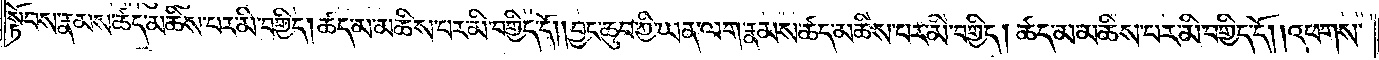སྟོབས་རྣམས་ཚད་མཆིས་པར་མི་བགྱིད། ཚད་མ་མཆིས་པར་མི་བགྱིད་དོ། །བྱང་ཆུབ་ཀྱི་ཡན་ལག་རྣམས་ཚད་མཆིས་པར་མི་བགྱིད། ཚད་མ་མཆིས་པར་མི་བགྱིད་དོ། །འཕགས་
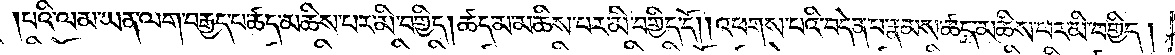པའི་ལམ་ཡན་ལག་བརྒྱད་པ་ཚད་མཆིས་པར་མི་བགྱིད། ཚད་མ་མཆིས་པར་མི་བགྱིད་དོ། །འཕགས་པའི་བདེན་པ་རྣམས་ཚད་མཆིས་པར་མི་བགྱིད།
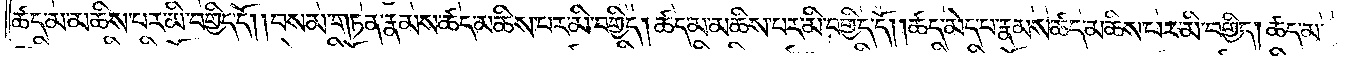ཚད་མ་མཆིས་པར་མི་བགྱིད་དོ། །བསམ་གཏན་རྣམས་ཚད་མཆིས་པར་མི་བགྱིད། ཚད་མ་མཆིས་པར་མི་བགྱིད་དོ། །ཚད་མེད་པ་རྣམས་ཚད་མཆིས་པར་མི་བགྱིད། ཚད་མ་
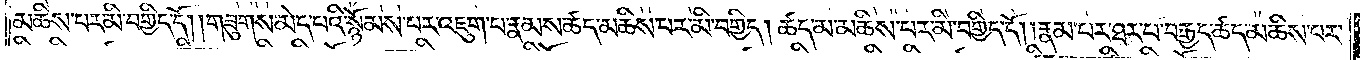མཆིས་པར་མི་བགྱིད་དོ། །གཟུགས་མེད་པའི་སྙོམས་པར་འཇུག་པ་རྣམས་ཚད་མཆིས་པར་མི་བགྱིད། ཚད་མ་མཆིས་པར་མི་བགྱིད་དོ། །རྣམ་པར་ཐར་པ་བརྒྱད་ཚད་མཆིས་པར་
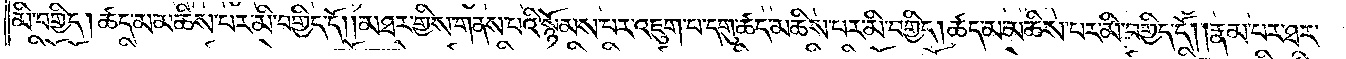མི་བགྱིད། ཚད་མ་མཆིས་པར་མི་བགྱིད་དོ། །མཐར་གྱིས་གནས་པའི་སྙོམས་པར་འཇུག་པ་དགུ་ཚད་མཆིས་པར་མི་བགྱིད། ཚད་མ་མཆིས་པར་མི་བགྱིད་དོ། །རྣམ་པར་ཐར་
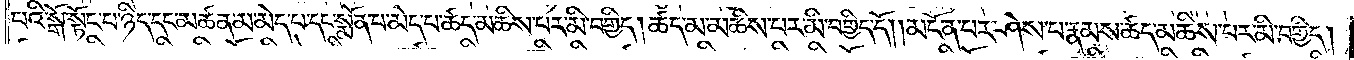པའི་སྒོ་སྟོང་པ་ཉིད་དང་མཚན་མ་མེད་པ་དང་སྨོན་པ་མེད་པ་ཚད་མཆིས་པར་མི་བགྱིད། ཚད་མ་མཆིས་པར་མི་བགྱིད་དོ། །མངོན་པར་ཤེས་པ་རྣམས་ཚད་མཆིས་པར་མི་བགྱིད།
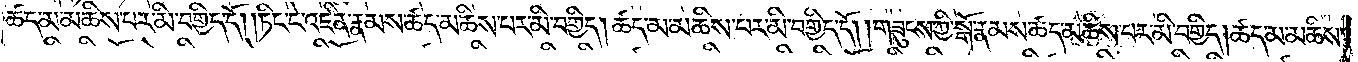ཚད་མ་མཆིས་པར་མི་བགྱིད་དོ། །ཏིང་ངེ་འཛིན་རྣམས་ཚད་མཆིས་པར་མི་བགྱིད། ཚད་མ་མཆིས་པར་མི་བགྱིད་དོ། །གཟུངས་ཀྱི་སྒོ་རྣམས་ཚད་མཆིས་པར་མི་བགྱིད། ཚད་མ་མཆིས་
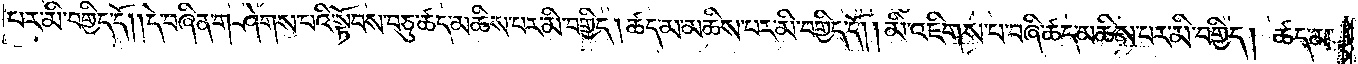པར་མི་བགྱིད་དོ། །དེ་བཞིན་གཤེགས་པའི་སྟོབས་བཅུ་ཚད་མཆིས་པར་མི་བགྱིད། ཚད་མ་མཆིས་པར་མི་བགྱིད་དོ། །མི་འཇིགས་པ་བཞི་ཚད་མཆིས་པར་མི་བགྱིད། ཚད་མ་
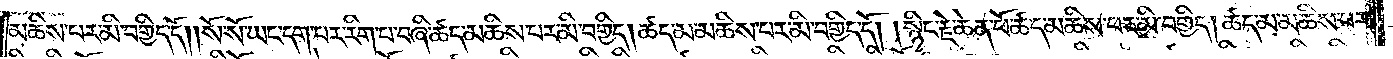མཆིས་པར་མི་བགྱིད་དོ། །སོ་སོ་ཡང་དག་པར་རིག་པ་བཞི་ཚད་མཆིས་པར་མི་བགྱིད། ཚད་མ་མཆིས་པར་མི་བགྱིད་དོ། །སྙིང་རྗེ་ཆེན་པོ་ཚད་མཆིས་པར་མི་བགྱིད། ཚད་མ་མཆིས་པར་
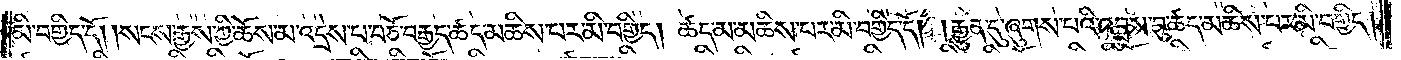མི་བགྱིད་དོ། །སངས་རྒྱས་ཀྱི་ཆོས་མ་འདྲེས་པ་བཅོ་བརྒྱད་ཚད་མཆིས་པར་མི་བགྱིད། ཚད་མ་མཆིས་པར་མི་བགྱིད་དོ། །རྒྱུན་དུ་ཞུགས་པའི་འབྲས་བུ་ཚད་མ་མཆིས་པར་མི་བགྱིད།
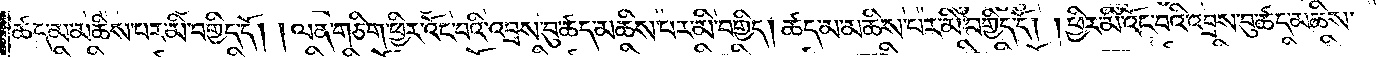ཚད་མ་མཆིས་པར་མི་བགྱིད་དོ། །ལན་གཅིག་ཕྱིར་འོང་བའི་འབྲས་བུ་ཚད་མཆིས་པར་མི་བགྱིད། ཚད་མ་མཆིས་པར་མི་བགྱིད་དོ། །ཕྱིར་མི་འོང་བའི་འབྲས་བུ་ཚད་མཆིས་
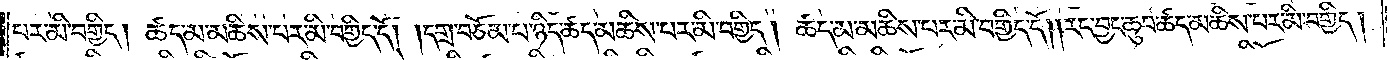པར་མི་བགྱིད། ཚད་མ་མཆིས་པར་མི་བགྱིད་དོ། །དགྲ་བཅོམ་པ་ཉིད་ཚད་མཆིས་པར་མི་བགྱིད། ཚད་མ་མཆིས་པར་མི་བགྱིད་དོ། །རང་བྱང་ཆུབ་ཚད་མཆིས་པར་མི་བགྱིད།
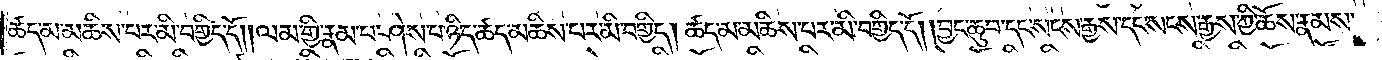ཚད་མ་མཆིས་པར་མི་བགྱིད་དོ། །ལམ་གྱི་རྣམ་པར་ཤེས་པ་ཉིད་ཚད་མཆིས་པར་མི་བགྱིད། ཚད་མ་མཆིས་པར་མི་བགྱིད་དོ། །བྱང་ཆུབ་དང་སངས་རྒྱས་དང་སངས་རྒྱས་ཀྱི་ཆོས་རྣམས་
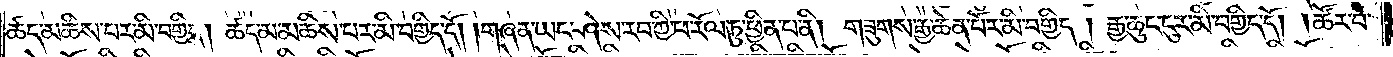ཚད་མཆིས་པར་མི་བགྱིད། ཚད་མ་མཆིས་པར་མི་བགྱིད་དོ། །གཞན་ཡང་ཤེས་རབ་ཀྱི་ཕ་རོལ་ཏུ་ཕྱིན་པ་ནི། གཟུགས་རྒྱ་ཆེན་པོར་མི་བགྱིད། རྒྱ་ཆུང་ངུར་མི་བགྱིད་དོ། །ཚོར་བ་
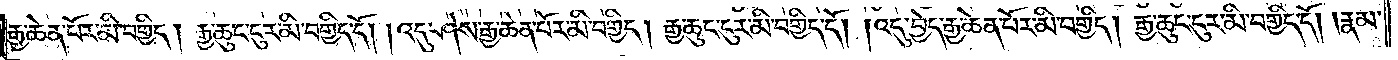རྒྱ་ཆེན་པོར་མི་བགྱིད། རྒྱ་ཆུང་ངུར་མི་བགྱིད་དོ། །འདུ་ཤེས་རྒྱ་ཆེན་པོར་མི་བགྱིད། རྒྱ་ཆུང་ངུར་མི་བགྱིད་དོ། །འདུ་བྱེད་རྒྱ་ཆེན་པོར་མི་བགྱིད། རྒྱ་ཆུང་ངུར་མི་བགྱིད་དོ། །རྣམ་
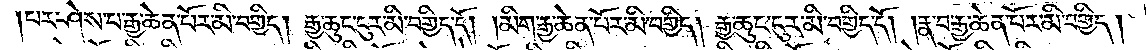པར་ཤེས་པ་རྒྱ་ཆེན་པོར་མི་བགྱིད། རྒྱ་ཆུང་ངུར་མི་བགྱིད་དོ། །མིག་རྒྱ་ཆེན་པོར་མི་བགྱིད། རྒྱ་ཆུང་ངུར་མི་བགྱིད་དོ། །རྣ་བ་རྒྱ་ཆེན་པོར་མི་བགྱིད།
